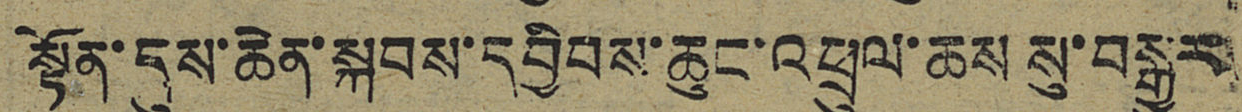སྟོན་དུས་ཆེན་སྐབས་དབྱིབས་ཆུང་འཕྲུལ་ཆས སུ་བསྒྱུར
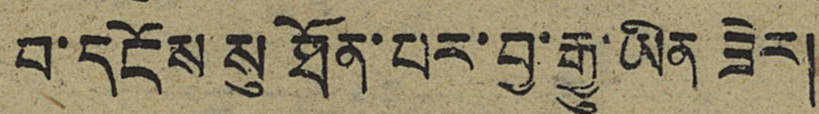བ་དངོས་སུ ཐོན་པར་བྱ་རྒྱུ་ཡིན་ཟེར།
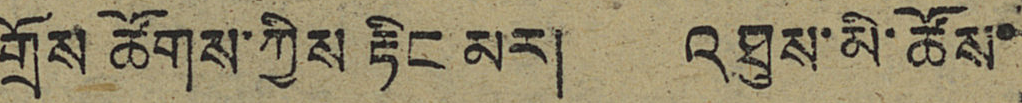གྲོས ཚོགས་ཀྱིས རྟིང མར། འཐུས་མི་ཚོས་
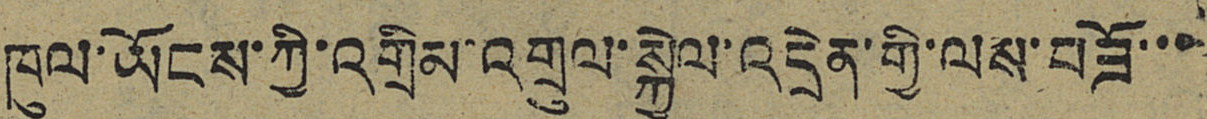ཁུལ་ཡོངས་ཀྱི་འགྲིམ་འགྲུལ་སྐྱེལ་འདྲེན་གྱི་ལས་བཟོ་་་
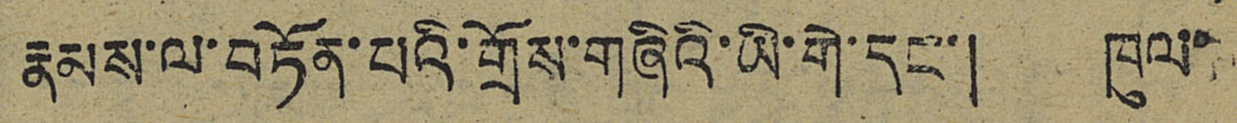རྣམས་ལ་བཏོན་པའི་གྲོས་གཞིའི་ཡི་གེ་དང་། ཁུལ་
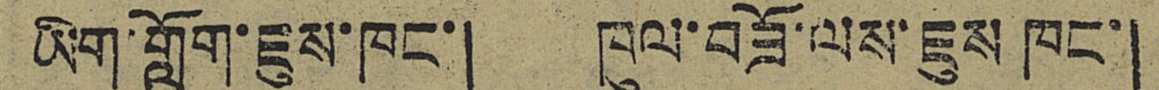ཡིག་གློག་ཇུས་ཁང་། ཁུལ་བཟོ་ལས་ཇུས ཁང་།
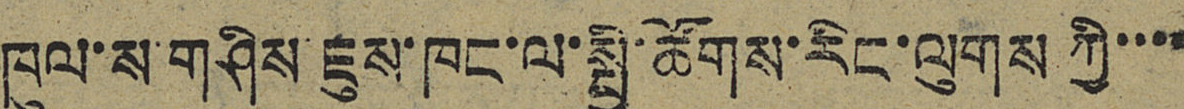ཁུལ་ས་གཤིས་ཇུས་ཁང་ལ་སྤྱི་ཚོགས་རིང་ལུགས་ཀྱི་་་་
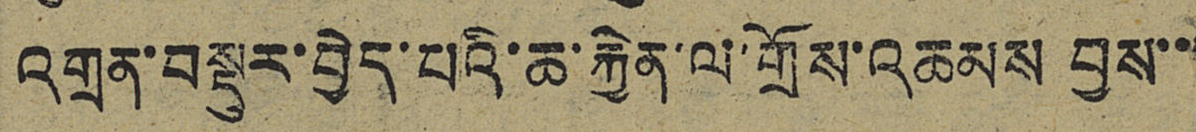འགྲན་བསྡུར་བྱེད་པའི་ཆ་རྐྱེན་ལ་གྲོས་འཆམས བྱས་་་
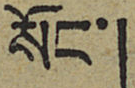སོང་།
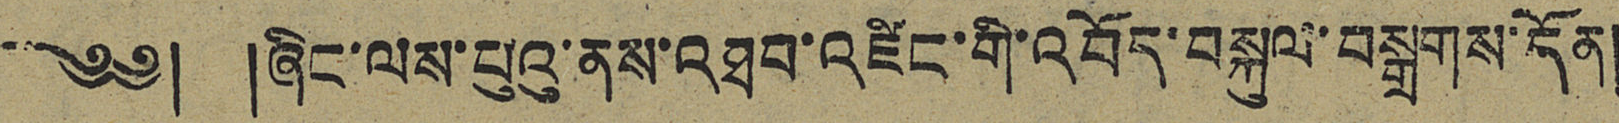༄༅། །ཞིང་ལས་པུའུ་ནས་འཐབ་འཛིང་གི་འབོད་བསྐུལ་བསྒྲགས་དོན།
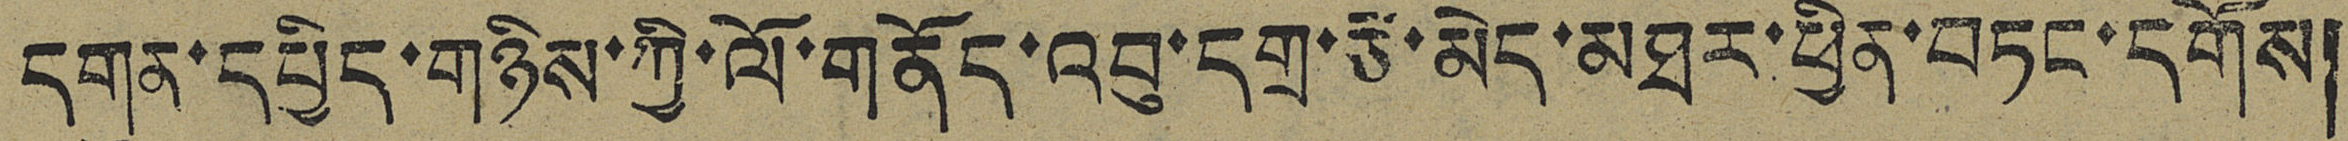དགུན་དཔྱིད་གཉིས་ཀྱི་ལོ་གནོད་འབུ་དགྲ་རྩ་མེད་མཐར་ཕྱིན་བཏང་དགོས།
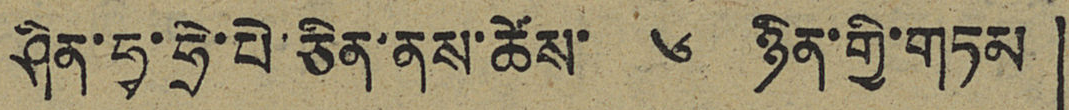ཤིན་ཧྭ་ཧྲེ་པེ་ཅིན་ནས་ཚེས་ ༦ ཉིན་གྱི་གཏམ
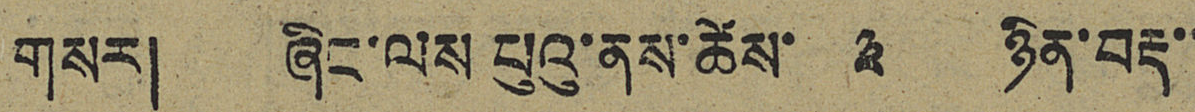གསར། ཞིང་ལས པུའུ་ནས་ཚེས་ ༣ ཉིན་བརྡ་་
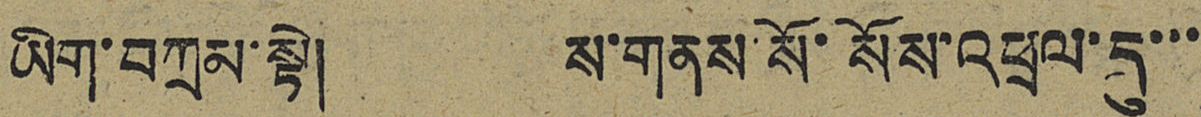ཡིག་བཀྲམ་སྟེ། ས་གནས་སོ་སོས་འཕྲལ་དུ་་་
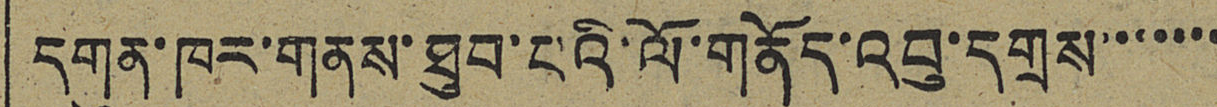དགུན་ཁར་གནས་ཐུབ་པའི་ལོ་གནོད་འབུ་དགྲས་་་་་་་
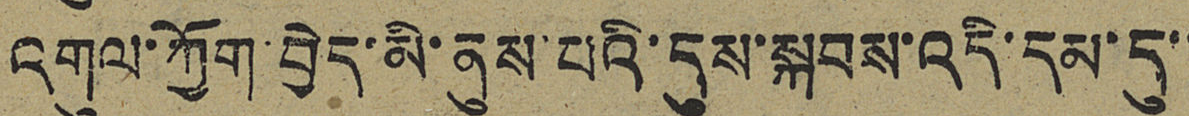འགུལ་ཀྱོག་བྱེད་མི་ནུས་པའི་དུས་སྐབས་འདི་དམ་དུ་་
